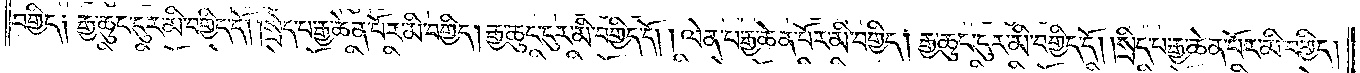བགྱིད༑ རྒྱ་ཆུང་ངུར་མི་བགྱིད་དོ། །སྲེད་པ་རྒྱ་ཆེན་པོར་མི་བགྱིད། རྒྱ་ཆུང་ངུར་མི་བགྱིད་དོ། །ལེན་པ་རྒྱ་ཆེན་པོར་མི་བགྱིད། རྒྱ་ཆུང་ངུར་མི་བགྱིད་དོ། །སྲིད་པ་རྒྱ་ཆེན་པོར་མི་བགྱིད།
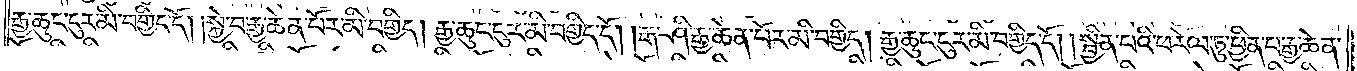རྒྱ་ཆུང་ངུར་མི་བགྱིད་དོ། །སྐྱེ་བ་རྒྱ་ཆེན་པོར་མི་བགྱིད། རྒྱ་ཆུང་ངུར་མི་བགྱིད་དོ། །རྒ་ཤི་རྒྱ་ཆེན་པོར་མི་བགྱིད། རྒྱ་ཆུང་ངུར་མི་བགྱིད་དོ། །སྦྱིན་པའི་ཕ་རོལ་ཏུ་ཕྱིན་པ་རྒྱ་ཆེན་
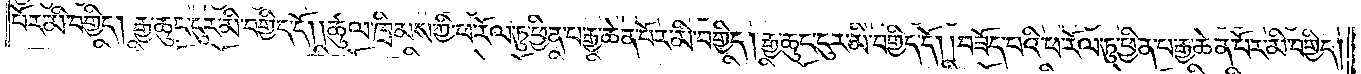པོར་མི་བགྱིད། རྒྱ་ཆུང་ངུར་མི་བགྱིད་དོ། །ཚུལ་ཁྲིམས་ཀྱི་ཕ་རོལ་ཏུ་ཕྱིན་པ་རྒྱ་ཆེན་པོར་མི་བགྱིད། རྒྱ་ཆུང་ངུར་མི་བགྱིད་དོ། །བཟོད་པའི་ཕ་རོལ་ཏུ་ཕྱིན་པ་རྒྱ་ཆེན་པོར་མི་བགྱིད།
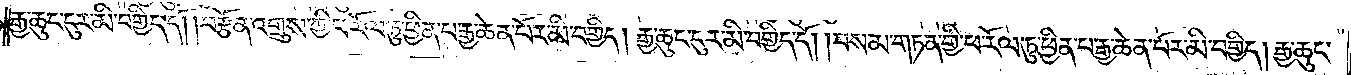རྒྱ་ཆུང་ངུར་མི་བགྱིད་དོ། །བརྩོན་འགྲུས་ཀྱི་ཕ་རོལ་ཏུ་ཕྱིན་པ་རྒྱ་ཆེན་པོར་མི་བགྱིད། རྒྱ་ཆུང་ངུར་མི་བགྱིད་དོ། །བསམ་གཏན་གྱི་ཕ་རོལ་ཏུ་ཕྱིན་པ་རྒྱ་ཆེན་པོར་མི་བགྱིད། རྒྱ་ཆུང་
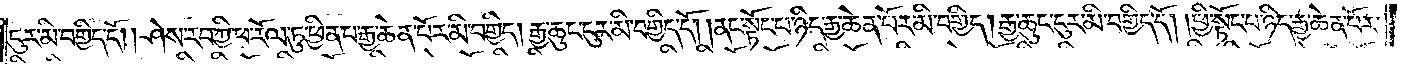ངུར་མི་བགྱིད་དོ། །ཤེས་རབ་ཀྱི་ཕ་རོལ་ཏུ་ཕྱིན་པ་རྒྱ་ཆེན་པོར་མི་བགྱིད། རྒྱ་ཆུང་ངུར་མི་བགྱིད་དོ། །ནང་སྟོང་པ་ཉིད་རྒྱ་ཆེན་པོར་མི་བགྱིད། རྒྱ་ཆུང་ངུར་མི་བགྱིད་དོ། །ཕྱི་སྟོང་པ་ཉིད་རྒྱ་ཆེན་པོར་
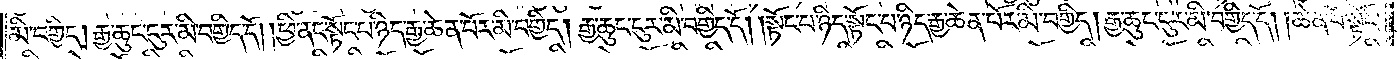མི་བགྱིད། རྒྱ་ཆུང་ངུར་མི་བགྱིད་དོ། །ཕྱི་ནང་སྟོང་པ་ཉིད་རྒྱ་ཆེན་པོར་མི་བགྱིད། རྒྱ་ཆུང་ངུར་མི་བགྱིད་དོ། །སྟོང་པ་ཉིད་སྟོང་པ་ཉིད་རྒྱ་ཆེན་པོར་མི་བགྱིད། རྒྱ་ཆུང་ངུར་མི་བགྱིད་དོ། །ཆེན་པོ་སྟོང་
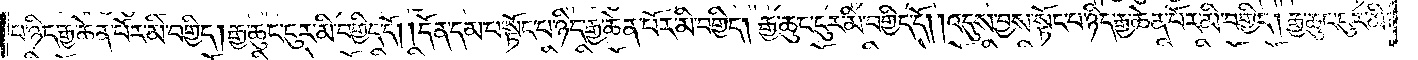པ་ཉིད་རྒྱ་ཆེན་པོར་མི་བགྱིད། རྒྱ་ཆུང་ངུར་མི་བགྱིད་དོ། །དོན་དམ་པ་སྟོང་པ་ཉིད་རྒྱ་ཆེན་པོར་མི་བགྱིད། རྒྱ་ཆུང་ངུར་མི་བགྱིད་དོ། །འདུས་བྱས་སྟོང་པ་ཉིད་རྒྱ་ཆེན་པོར་མི་བགྱིད། རྒྱ་ཆུང་ངུར་མི་
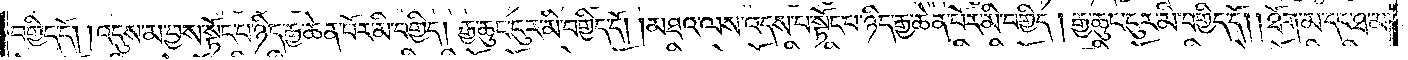བགྱིད་དོ། །འདུས་མ་བྱས་སྟོང་པ་ཉིད་རྒྱ་ཆེན་པོར་མི་བགྱིད། རྒྱ་ཆུང་ངུར་མི་བགྱིད་དོ། །མཐའ་ལས་འདས་པ་སྟོང་པ་ཉིད་རྒྱ་ཆེན་པོར་མི་བགྱིད། རྒྱ་ཆུང་ངུར་མི་བགྱིད་དོ། །ཐོག་མ་དང་ཐ་མ་
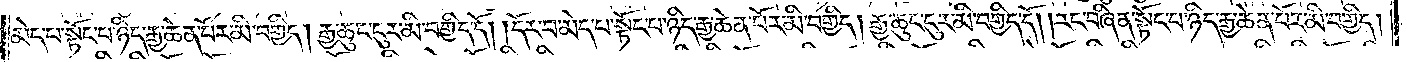མེད་པ་སྟོང་པ་ཉིད་རྒྱ་ཆེན་པོར་མི་བགྱིད། རྒྱ་ཆུང་ངུར་མི་བགྱིད་དོ། །དོར་བ་མེད་པ་སྟོང་པ་ཉིད་རྒྱ་ཆེན་པོར་མི་བགྱིད། རྒྱ་ཆུང་ངུར་མི་བགྱིད་དོ། །རང་བཞིན་སྟོང་པ་ཉིད་རྒྱ་ཆེན་པོར་མི་བགྱིད།
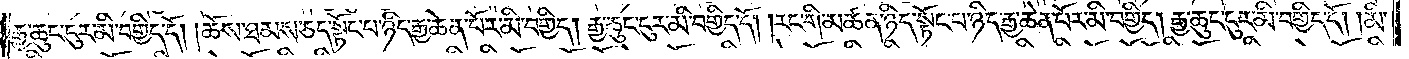རྒྱ་ཆུང་ངུར་མི་བགྱིད་དོ། །ཆོས་ཐམས་ཅད་སྟོང་པ་ཉིད་རྒྱ་ཆེན་པོར་མི་བགྱིད། རྒྱ་ཆུང་ངུར་མི་བགྱིད་དོ། །རང་གི་མཚན་ཉིད་སྟོང་པ་ཉིད་རྒྱ་ཆེན་པོར་མི་བགྱིད། རྒྱ་ཆུང་ངུར་མི་བགྱིད་དོ། །མི་
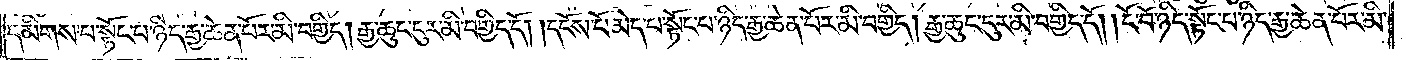དམིགས་པ་སྟོང་པ་ཉིད་རྒྱ་ཆེན་པོར་མི་བགྱིད། རྒྱ་ཆུང་ངུར་མི་བགྱིད་དོ། །དངོས་པོ་མེད་པ་སྟོང་པ་ཉིད་རྒྱ་ཆེན་པོར་མི་བགྱིད། རྒྱ་ཆུང་ངུར་།མི་བགྱིད་དོ། །ངོ་བོ་ཉིད་སྟོང་པ་ཉིད་རྒྱ་ཆེན་པོར་མི་
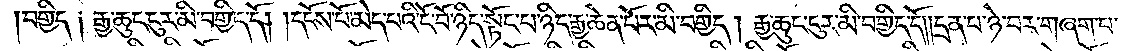བགྱིད༑ རྒྱ་ཆུང་ངུར་མི་བགྱིད་དོ། །དངོས་པོ་མེད་པའི་ངོ་བོ་ཉིད་སྟོང་པ་ཉིད་རྒྱ་ཆེན་པོར་མི་བགྱིད། རྒྱ་ཆུང་ངུར་མི་བགྱིད་དོ། །དྲན་པ་ཉེ་བར་གཞག་པ་
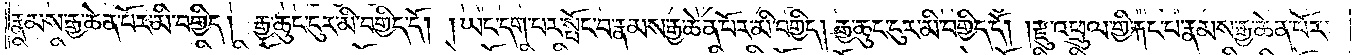རྣམས་རྒྱ་ཆེན་པོར་མི་བགྱིད། རྒྱ་ཆུང་ངུར་མི་བགྱིད་དོ། །ཡང་དག་པར་སྤོང་བ་རྣམས་རྒྱ་ཆེན་པོར་མི་བགྱིད། རྒྱ་ཆུང་ངུར་མི་བགྱིད་དོ། །རྫུ་འཕྲུལ་གྱི་རྐང་པ་རྣམས་རྒྱ་ཆེན་པོར་
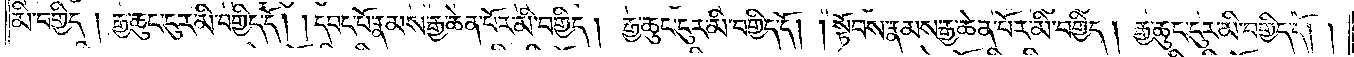མི་བགྱིད། རྒྱ་ཆུང་ངུར་མི་བགྱིད་དོ། །དབང་པོ་རྣམས་རྒྱ་ཆེན་པོར་མི་བགྱིད། རྒྱ་ཆུང་ངུར་མི་བགྱིད་དོ། །སྟོབས་རྣམས་རྒྱ་ཆེན་པོར་མི་བགྱིད། རྒྱ་ཆུང་ངུར་མི་བགྱིད་དོ། །
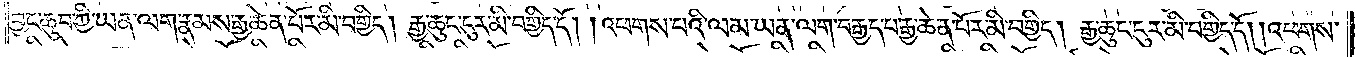བྱང་ཆུབ་ཀྱི་ཡན་ལག་རྣམས་རྒྱ་ཆེན་པོར་མི་བགྱིད། རྒྱ་ཆུང་ངུར་མི་བགྱིད་དོ། །འཕགས་པའི་ལམ་ཡན་ལག་བརྒྱད་པ་རྒྱ་ཆེན་པོར་མི་བགྱིད། རྒྱ་ཆུང་ངུར་མི་བགྱིད་དོ། །འཕགས་
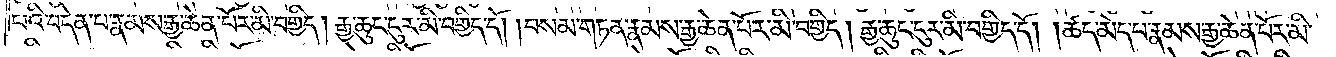པའི་བདེན་པ་རྣམས་རྒྱ་ཆེན་པོར་མི་བགྱིད། རྒྱ་ཆུང་ངུར་མི་བགྱིད་དོ། །བསམ་གཏན་རྣམས་རྒྱ་ཆེན་པོར་མི་བགྱིད། རྒྱ་ཆུང་ངུར་མི་བགྱིད་དོ། །ཚད་མེད་པ་རྣམས་རྒྱ་ཆེན་པོར་མི་
